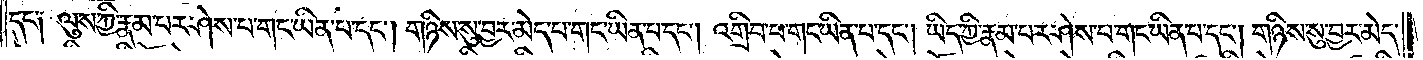དང༌༏ ལུས་ཀྱི་རྣམ་པར་ཤེས་པ་གང་ཡིན་པ་དང༌། གཉིས་སུ་བྱར་མེད་པ་གང་ཡིན་པ་དང༌། འགྲིབ་པ་གང་ཡིན་པ་དང༌། ཡིད་ཀྱི་རྣམ་པར་ཤེས་པ་གང་ཡིན་པ་དང༌། གཉིས་སུ་བྱར་མེད་
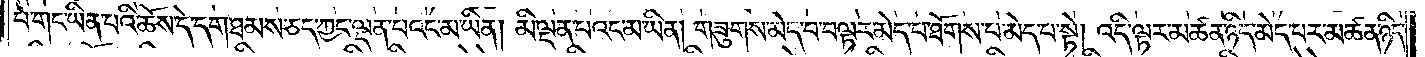པ་གང་ཡིན་པའི་ཆོས་དེ་དག་ཐམས་ཅད་ཀྱང་ལྡན་པའང་མ་ཡིན། མི་ལྡན་པའང་མ་ཡིན། གཟུགས་མེད་པ་བལྟར་མེད་པ་ཐོགས་པ་མེད་པ་སྟེ། འདི་ལྟར་མཚན་ཉིད་མེད་པར་མཚན་ཉིད་
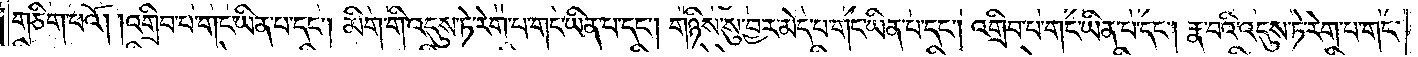གཅིག་པའོ། །འགྲིབ་པ་གང་ཡིན་པ་དང༌། མིག་གི་འདུས་ཏེ་རེག་པ་གང་ཡིན་པ་དང༌། གཉིས་སུ་བྱར་མེད་པ་གང་ཡིན་པ་དང༌། འགྲིབ་པ་གང་ཡིན་པ་དང༌། རྣ་བའི་འདུས་ཏེ་རེག་པ་གང་
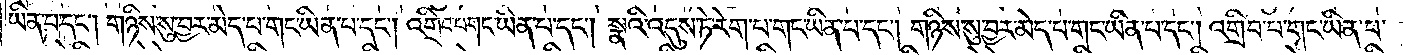ཡིན་པ་དང༌། གཉིས་སུ་བྱར་མེད་པ་གང་ཡིན་པ་དང༌། འགྲིབ་པ་གང་ཡིན་པ་དང༌། སྣའི་འདུས་ཏེ་རེག་པ་གང་ཡིན་པ་དང༌། གཉིས་སུ་བྱར་མེད་པ་གང་ཡིན་པ་དང༌། འགྲིབ་པ་གང་ཡིན་པ་
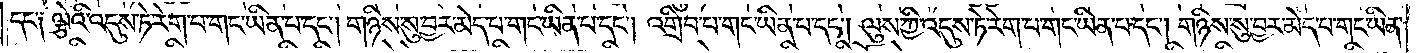དང༌༏ ལྕེའི་འདུས་ཏེ་རེག་པ་གང་ཡིན་པ་དང༌། གཉིས་སུ་བྱར་མེད་པ་གང་ཡིན་པ་དང༌། འགྲིབ་པ་གང་ཡིན་པ་དང༌། ལུས་ཀྱི་འདུས་ཏེ་རེག་པ་གང་ཡིན་པ་དང༌། གཉིས་སུ་བྱར་མེད་པ་གང་ཡིན་
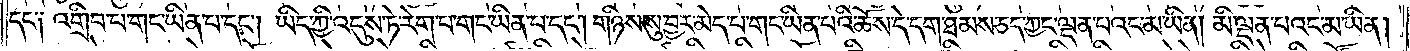པ་དང༌༏ འགྲིབ་པ་གང་ཡིན་པ་དང༌། ཡིད་ཀྱི་འདུས་ཏེ་རེག་པ་གང་ཡིན་པ་དང༌། གཉིས་སུ་བྱར་མེད་པ་གང་ཡིན་པའི་ཆོས་དེ་དག་ཐམས་ཅད་ཀྱང་ལྡན་པའང་མ་ཡིན། མི་ལྡན་པའང་མ་ཡིན།
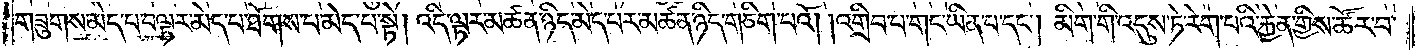གཟུགས་མེད་པ་བལྟར་མེད་པ་ཐོགས་པ་མེད་པ་སྟེ། འདི་ལྟར་མཚན་ཉིད་མེད་པར་མཚན་ཉིད་གཅིག་པའོ། །འགྲིབ་པ་གང་ཡིན་པ་དང༌། མིག་གི་འདུས་ཏེ་རེག་པའི་རྐྱེན་གྱིས་ཚོར་བ་
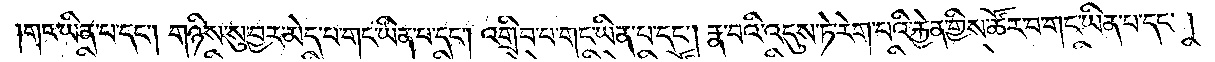གང་ཡིན་པ་དང༌། གཉིས་སུ་བྱར་མེད་པ་གང་ཡིན་པ་དང༌། འགྲིབ་པ་གང་ཡིན་པ་དང༌། རྣ་བའི་འདུས་ཏེ་རེག་པའི་རྐྱེན་གྱིས་ཚོར་བ་གང་ཡིན་པ་དང༌།
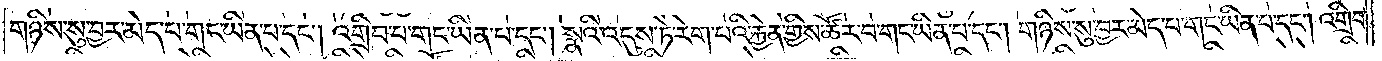གཉིས་སུ་བྱར་མེད་པ་གང་ཡིན་པ་དང༌། འགྲིབ་པ་གང་ཡིན་པ་དང༌། སྣའི་འདུས་ཏེ་རེག་པའི་རྐྱེན་གྱིས་ཚོར་བ་གང་ཡིན་པ་དང༌། གཉིས་སུ་བྱར་མེད་པ་གང་ཡིན་པ་དང༌། འགྲིབ་
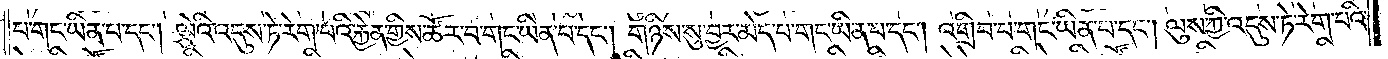པ་གང་ཡིན་པ་དང༌། ལྕེའི་འདུས་ཏེ་རེག་པའི་རྐྱེན་གྱིས་ཚོར་བ་གང་ཡིན་པ་དང༌། གཉིས་སུ་བྱར་མེད་པ་གང་ཡིན་པ་དང༌། འགྲིབ་པ་གང་ཡིན་པ་དང༌། ལུས་ཀྱི་འདུས་ཏེ་རེག་པའི་
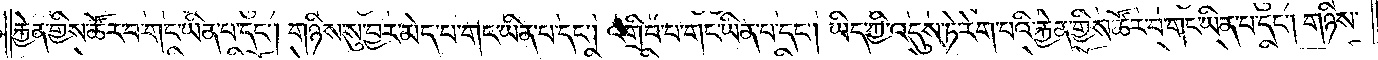རྐྱེན་གྱིས་ཚོར་བ་གང་ཡིན་པ་དང༌། གཉིས་སུ་བྱར་མེད་པ་གང་ཡིན་པ་དང༌། འགྲིབ་པ་གང་ཡིན་པ་དང༌། ཡིད་ཀྱི་འདུས་ཏེ་རེག་པའི་རྐྱེན་གྱིས་ཚོར་བ་གང་ཡིན་པ་དང༌། གཉིས་
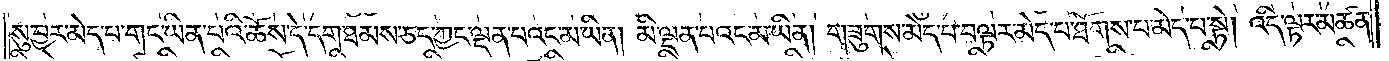སུ་བྱར་མེད་པ་གང་ཡིན་པའི་ཆོས་དེ་དག་ཐམས་ཅད་ཀྱང་ལྡན་པའང་མ་ཡིན། མི་ལྡན་པའང་མ་ཡིན། གཟུགས་མེད་པ་བལྟར་མེད་པ་ཐོགས་པ་མེད་པ་སྟེ། འདི་ལྟར་མཚན་
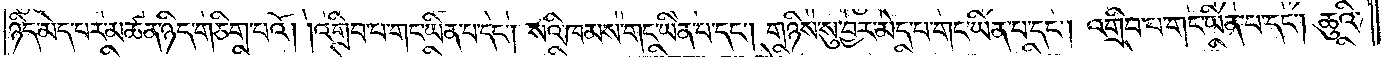ཉིད་མེད་པར་མཚན་ཉིད་གཅིག་པའོ། །འགྲིབ་པ་གང་ཡིན་པ་དང༌། སའི་ཁམས་གང་ཡིན་པ་དང༌། གཉིས་སུ་བྱར་མེད་པ་གང་ཡིན་པ་དང༌། འགྲིབ་པ་གང་ཡིན་པ་དང༌། ཆུའི་
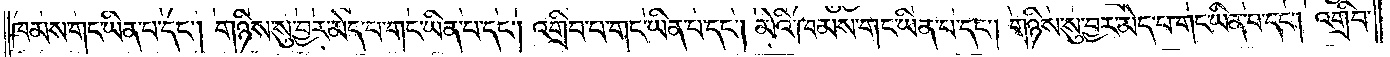ཁམས་གང་ཡིན་པ་དང༌། གཉིས་སུ་བྱར་མེད་པ་གང་ཡིན་པ་དང༌། འགྲིབ་པ་གང་ཡིན་པ་དང༌། མེའི་ཁམས་གང་ཡིན་པ་དང༌། གཉིས་སུ་བྱར་མེད་པ་གང་ཡིན་པ་དང༌། འགྲིབ་
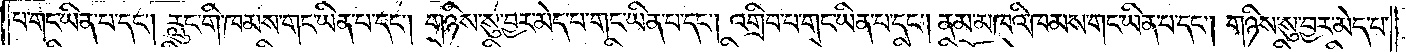པ་གང་ཡིན་པ་དང༌། རླུང་གི་ཁམས་གང་ཡིན་པ་དང༌། གཉིས་སུ་བྱར་མེད་པ་གང་ཡིན་པ་དང༌། འགྲིབ་པ་གང་ཡིན་པ་དང༌། ནམ་མཁའི་ཁམས་གང་ཡིན་པ་དང༌། གཉིས་སུ་བྱར་མེད་
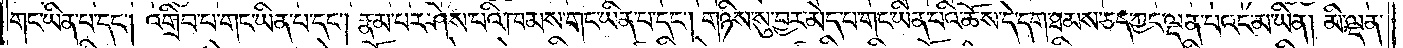པ་གང་ཡིན་པ་དང༌། འགྲིབ་པ་གང་ཡིན་པ་དང༌། རྣམ་པར་ཤེས་པའི་ཁམས་གང་ཡིན་པ་དང༌། གཉིས་སུ་བྱར་མེད་པ་གང་ཡིན་པའི་ཆོས་དེ་དག་ཐམས་ཅད་ཀྱང་ལྡན་པའང་མ་ཡིན། མི་ལྡན་
